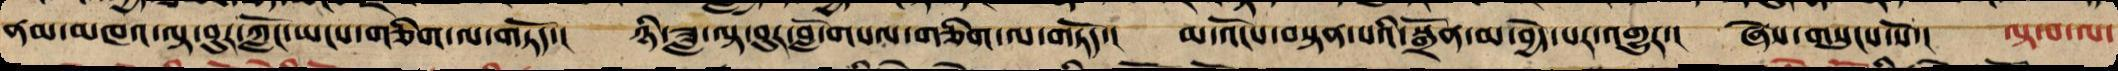ནམ་མཁའ་ལྟ་བུར་ཀློང་ཡངས་གཅིག་ལ་གཏོད་། ཉི་ཟླ་ལྟ་བུར་བློ་གསལ་གཅིག་ལ་གཏོད་། མ་འོངས་བསྟན་པའི་སྒྲོན་མ་བྱེད་པར་འགྱུར་། ཞེས་གསུངས་སོ་། ལྟ་བ་ལ་
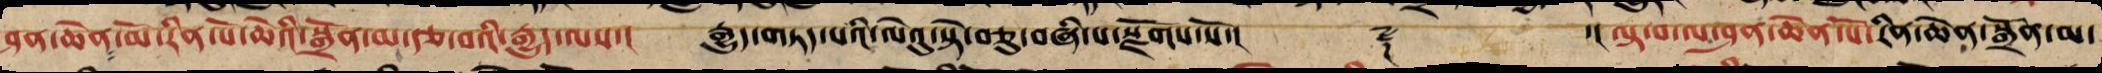ཤན་ཆེན་པོའི་རིན་པོ་ཆེའི་སྒྲོན་མ་རྩ་བའི་རྒྱུད་ལས་། རྒྱུད་གཏད་པའི་ལེའུ་སྟེ་བཅུ་བཞི་པ་སྫོགས་སོ་།། ༈ ་།། ལྟ་བ་ལ་ཤན་ཆེན་པོ་རིན་ཆེན་སྒྲོན་མ་
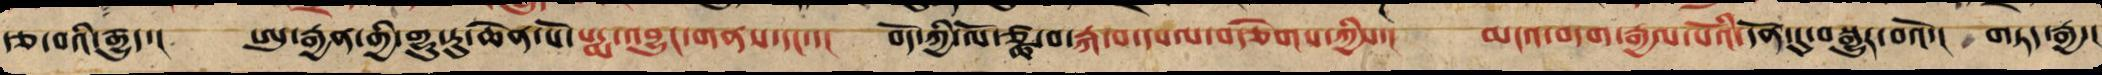རྩ་བའི་རྒྱུད་། ཨུ་རྒྱན་གྱི་གུ་རུ་ཆེན་པོ་པདྨ་འབྱུང་གནས་དང་་། བོད་ཀྱི་ལོཙྪ་བ་སྐ་བ་དཔལ་བརྩེགས་ཀྱིས་མངའ་བདག་རྒྱལ་པོའི་དོན་དུ་བསྒྱུར་བའོ་། གཏད་རྒྱ་
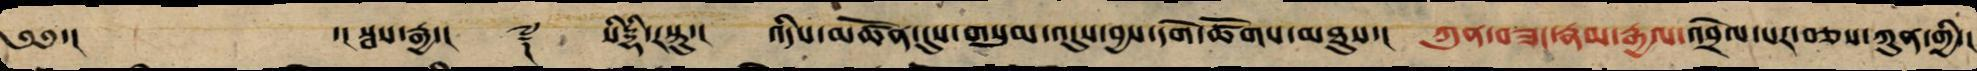༄༅་།  ་། སྦས་རྒྱ་། ༈ སིདྡྷི་རསྟུ་། འདིས་མཚོན་དུས་གསུམ་འདུས་བྱས་དགེ་ཚོགས་མཐུས་། ཀུན་བཟང་རྣམ་རྒྱལ་འབྲེལ་པར་བཅས་ཀུན་གྱི་།
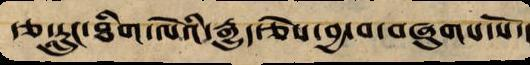རྩ་རླུང་ཐིག་ལེའི་རྒྱུད་ཅེས་བྱ་བ་བཞུགས་སོ་།
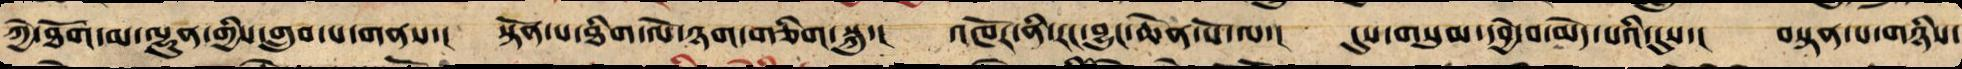ཀྱེ་ཐོག་མ་ལྷུན་གྱིས་གྲུབ་པའི་གནས་། སྟོན་པ་ཐིག་ལེ་ཉག་གཅིག་སྐུ་། འཁོར་ནི་རང་བྱུང་ཆེན་པོ་ལ་། དུས་གསུམ་དབྱེ་བ་མེད་པའི་དུས་། བསྟན་པ་གཉིས་
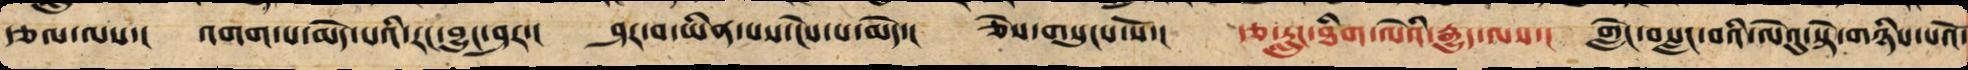རྩལ་ལས་། འགག་པ་མེད་པའི་རང་བྱུང་ཤར་། ཤར་བ་ཡིན་པས་ངེས་པ་མེད་། ཅེས་གསུངས་སོ་། རྩ་རླུང་ཐིག་ལེའི་རྒྱུད་ལས་། གླེང་བསླང་བའི་ལེའུ་སྟེ་གཉིས་པའོ་
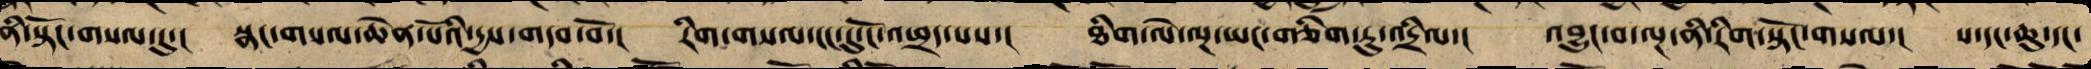ནི་སྟོང་གསལ་དུ་། སྣང་གསལ་ཆེན་པོའི་རྒྱས་གདབ་པོ་། རིག་གསལ་ངང་དུ་ངོ་འཕྲད་པས་། ཐིག་ལེ་ལྔ་ཡང་གཅིག་ཏུ་འདྲིལ་། འབྱུང་བ་ལྔ་ནི་རིག་སྟོང་གསལ་། ས་དང་ཆུ་དང་
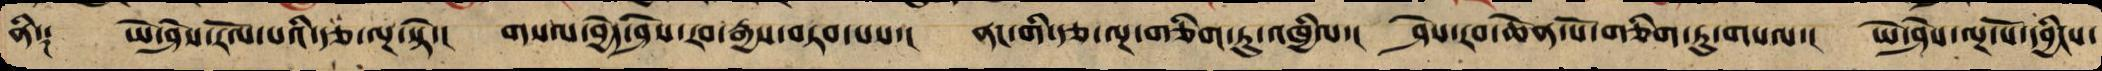ནི༑ ཡེ་ཤེས་རོལ་པའི་རྩ་ལྔ་སྟེ་། གསལ་བྱེད་ཤེས་རབ་རྒྱས་བཏབ་པས་། ནང་གི་རྩ་ལྔ་གཅིག་ཏུ་འཁྱིལ་། ཤེས་རབ་ཆེན་པོ་གཅིག་ཏུ་གསལ་། ཡེ་ཤེས་ལྔ་པོ་དབྱིངས་
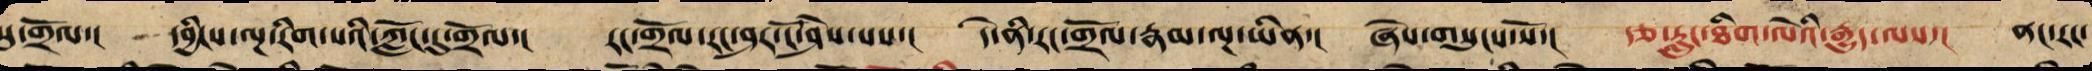སུ་གྲོལ་། དབྱིངས་ལྔ་རིག་པའི་ཀློང་དུ་གྲོལ་། རང་གྲོལ་རང་ཤར་ངོ་ཤེས་པས་། དེ་ནི་རང་གྲོལ་རྣམ་ལྔ་ཡིན་། ཞེས་གསུངས་སོ་། རྩ་རླུང་ཐིག་ལེའི་རྒྱུད་ལས་། ནང་རང་
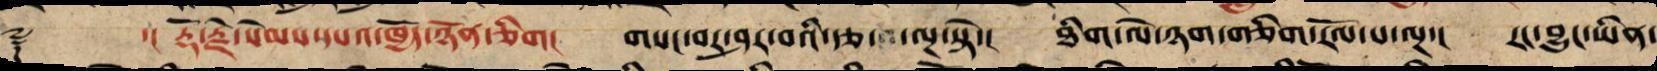༈ ་།། རྡོ་རྗེ་སེམས་དཔའ་ཁྱོད་ཉོན་ཅིག། གསང་བར་ཤར་བའི་རྩ་ལྔ་ནི་། ཐིག་ལེ་ཉག་གཅིག་རོལ་པ་ལྔ་། རང་བྱུང་ཡིན་
